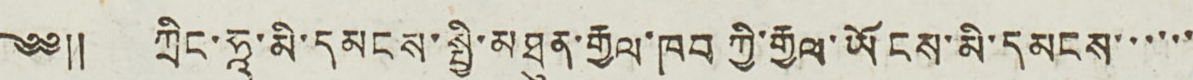༄༅༎ ཀྲིང་ཧཱ་མི་དམངས་སྤྱི་མཐུན་རྒྱལ་ཁབ ཀྱི་རྒྱལ་ཡོངས་མི་དམངས་་་་་་
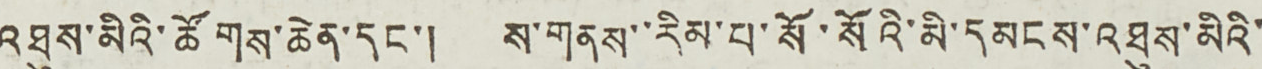འཐུས་མིའི་ཚོགས་ཆེན་དང་། ས་གནས་་རིམ་པ་སོ་སོའི་མི་དམངས་འཐུས་མིའི་
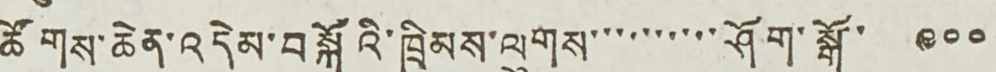ཚོགས་ཆེན་འདེམ་བསྐོའི་ཁྲིམས་ལུགས་་་་་་་་་་ཤོག་སྒོ་ ༩༠༠
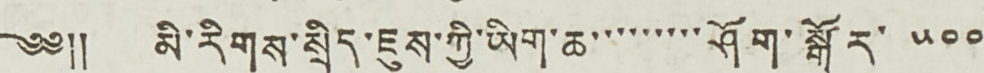༄༅༎ མི་རིགས་སྲིད་ཇུས་ཀྱི་ཡིག་ཆ་་་་་་་་་ཤོག་སྒོར་ ༥༠༠
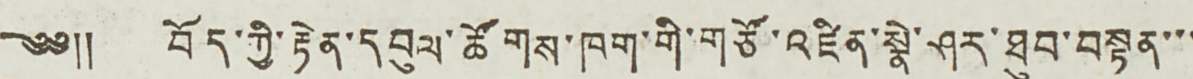༄༅༎ བོད་ཀྱི་རྟེན་དབུལ་ཚོགས་ཁག་གི་གཙོ་འཛིན་སྣེ་ཤར་ཐུབ་བསྟན་་་
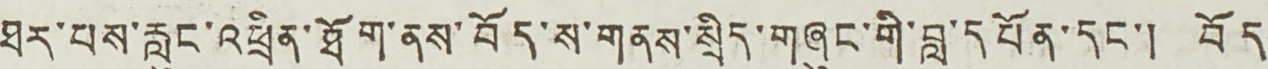ཐར་པས་རླུང་འཕྲིན་ཐོག་ནས་བོད་ས་གནས་སྲིད་གཞུང་གི་བླ་དཔོན་དང་། བོད
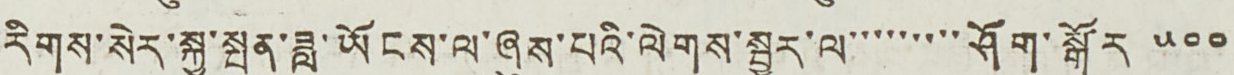རིགས་སེར་སྐུ་སྤུན་ཟླ་ཡོངས་ལ་ཞུས་པའི་ལེགས་སྦྱར་ལ་་་་་་་་་ཤོག་སྒོར ༥༠༠
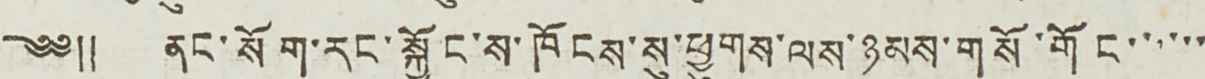༄༅༎ ནང་སོག་རང་སྐྱོང་ས་ཁོངས་སུ་ཕྱུགས་ལས་ཉམས་གསོ་གོང་་་་་་
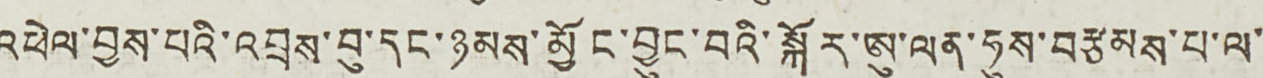འཕེལ་བྱས་པའི་འབྲས་བུ་དང་ཉམས་མྱོང་བྱུང་བའི་སྐོར་ཨུ་ལན་ཧུས་བརྩམས་པ་ལ་
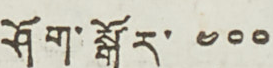ཤོག་སྒོར་ ༤༠༠
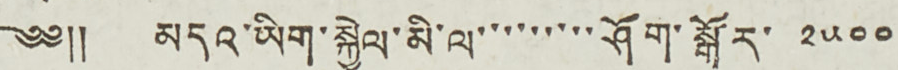༄༅༎ མདའ་ཡིག་སྐྱེལ་མི་ལ་་་་་་་་་ཤོག་སྒོར་ ༢༥༠༠
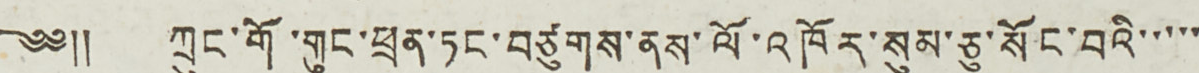༄༅༎ ཀྲུང་གོ་གུང་ཕྲན་ཏང་བཙུགས་ནས་ལོ་འཁོར་སུམ་ཅུ་སོང་བའི་་་་་
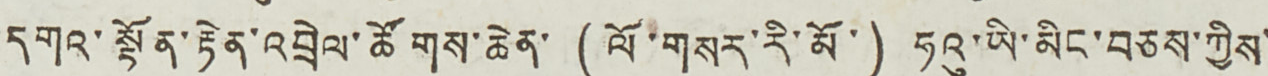དགའ་སྟོན་རྟེན་འབྲེལ་ཚོགས་ཆེན་ (ལོ་གསར་རི་མོ་) ཧའུ་ཡི་མིང་བཅས་ཀྱིས་
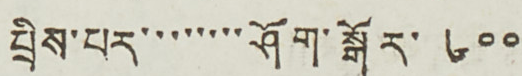པྲིས་པར་་་་་་་་ཤོག་སྒོར་ ༦༠༠
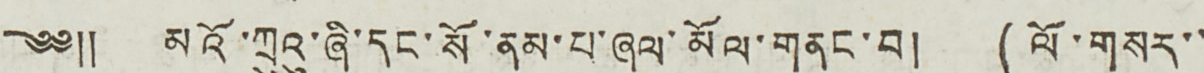༄༅༎ མའོ་ཀྲུའུ་ཞི་དང་སོ་ནམ་པ་ཞལ་མོལ་གནང་བ། (ལོ་གསར་་
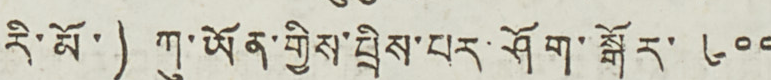རི་མོ་) ཀུ་ཡོན་གྱིས་བྲིས་པར་ཤོག་སྒོར་ ༦༠༠
